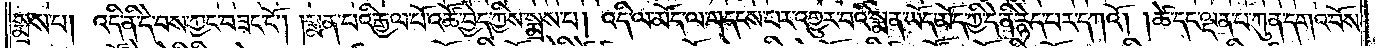སྨྲས་པ། འདི་ནི་དེ་བས་ཀྱང་བཟང་ངོ༌། །སྨན་པའི་རྒྱལ་པོ་འཚོ་བྱེད་ཀྱིས་སྨྲས་པ། འདི་ལ་མོད་ལ་གདངས་པར་འགྱུར་བའི་སྨན་ཡོད་མོད་ཀྱི་དེ་ནི་རྙེད་པར་དཀའོ། །ཚེ་དང་ལྡན་པ་ཀུན་དགའ་བོས་
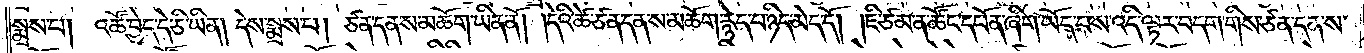སྨྲས་པ། འཚོ་བྱེད་དེ་ཅི་ཡིན། དེས་སྨྲས་པ། ཙན་དན་ས་མཆོག་ཡིན་ནོ། །དེའི་ཚེ་ཙན་དན་ས་མཆོག་རྙེད་པ་ཉིད་མེད་དོ། །ཇི་ཙམ་ན་ཚོང་དཔོན་ཞིག་ཡོད་པས་འདི་ལྟར་བདག་གིས་ཙན་དན་ས་
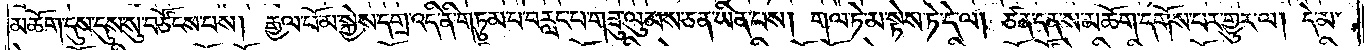མཆོག་དུས་དུས་སུ་བཙོངས་པས། རྒྱལ་པོ་མ་སྐྱེས་དགྲ་འདི་ནི་གཏུམ་པ་བརླང་པ་གཟུ་ལུམས་ཅན་ཡིན་པས། གལ་ཏེ་མ་སྟེས་ཏེ་དེ་ལ། ཙན་དན་ས་མཆོག་དགོས་པར་གྱུར་ལ། དེ་མ་
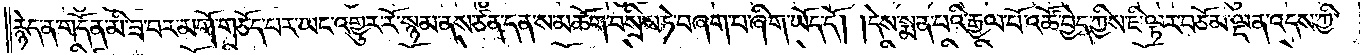རྙེད་ན་གདོན་མི་ཟ་བར་མགོ་གཅོད་པར་ཡང་འགྱུར་རོ་སྙམ་ནས་ཙན་དན་ས་མཆོག་བསྲིས་ཏེ་བཞག་པ་ཞིག་ཡོད་དོ། །དེས་སྨན་པའི་རྒྱལ་པོ་འཚོ་བྱེད་ཀྱིས་ཇི་ལྟར་བཅོམ་ལྡན་འདས་ཀྱི་
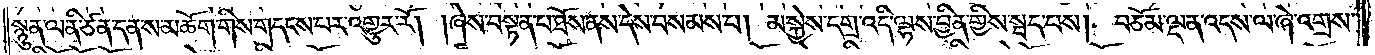སྙུན་ལ་ནི་ཙན་དན་ས་མཆོག་གིས་གདངས་པར་འགྱུར་རོ། །ཞེས་བསྟན་པ་ཐོས་ནས་དེས་བསམས་པ། མ་སྐྱེས་དགྲ་འདི་ལྷས་བྱིན་གྱིས་སྦད་པས། བཅོམ་ལྡན་འདས་ལ་ཞེ་འགྲས་
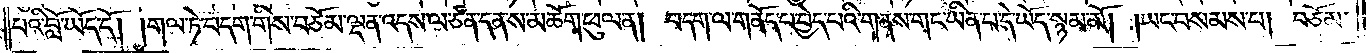པའི་བློ་ཡོད་དོ། །གལ་ཏེ་བདག་གིས་བཅོམ་ལྡན་འདས་ལ་ཙན་དན་ས་མཆོག་ཕུལ་ན། བདག་ལ་གནོད་པ་བྱེད་པའི་གནས་གང་ཡིན་པ་དེ་ཡོད་སྙམ་མོ། །ཡང་བསམས་པ། བཅོམ་
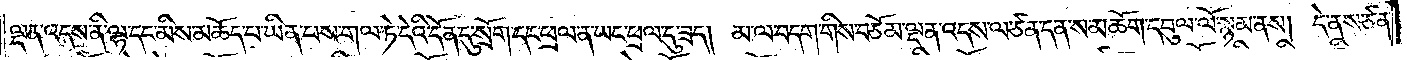ལྡན་འདས་ནི་ལྷ་དང་མིས་མཆོད་པ་ཡིན་པས་གལ་ཏེ་དེའི་དོན་དུ་སྲོག་དང་ཕྲལ་ན་ཡང་ཕྲལ་དུ་ཟད། མ་ལ་བདག་གིས་བཅོམ་ལྡན་འདས་ལ་ཙན་དན་ས་མཆོག་དབུལ་ལོ་སྙམ་ནས། དེ་ནས་ཙན་
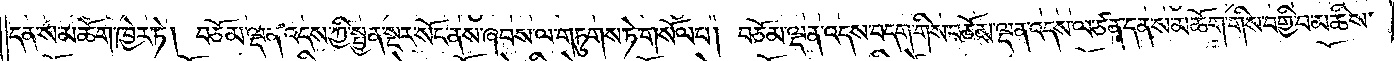དན་ས་མཆོག་ཁྱེར་ཏེ། བཅོམ་ལྡན་འདས་ཀྱི་སྤྱན་སྔར་སོང་ནས་ཞབས་ལ་གཏུགས་ཏེ་གསོལ་པ། བཅོམ་ལྡན་འདས་བདག་གིས་བཅོམ་ལྡན་འདས་ལ་ཙན་དན་ས་མཆོག་གིས་བགྱི་བ་མཆིས་
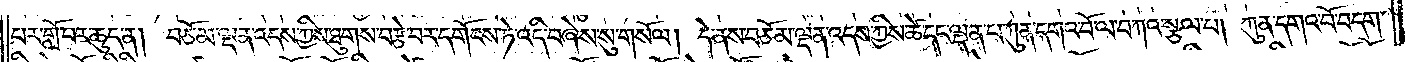པར་གློ་བར་ཆུད་ན། བཅོམ་ལྡན་འདས་ཀྱིས་ཐུགས་བརྩེ་བར་དགོངས་ཏེ་འདི་བཞེས་སུ་གསོལ། དེ་ནས་བཅོམ་ལྡན་འདས་ཀྱིས་ཚེ་དང་ལྡན་པ་ཀུན་དགའ་བོ་ལ་བཀའ་སྩལ་པ། ཀུན་དགའ་བོ་བདག་
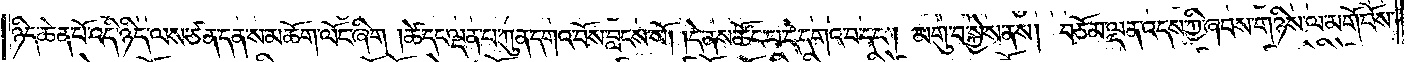ཉིད་ཆེན་པོ་འདི་ཉིད་ལས་ཙན་དན་ས་མཆོག་ལོང་ཞིག །ཚེ་དང་ལྡན་པ་ཀུན་དགའ་བོས་བླངས་སོ། །དེ་ནས་ཚོང་པ་དེ་དགའ་བ་དང༌། མགུ་བ་སྐྱེས་ནས། བཅོམ་ལྡན་འདས་ཀྱི་ཞབས་གཉིས་ལ་མགོ་བོས་
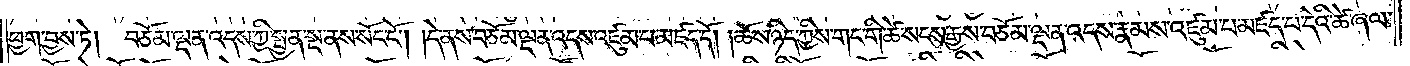ཕྱག་བྱས་ཏེ། བཅོམ་ལྡན་འདས་ཀྱི་སྤྱན་སྔ་ནས་སོང་ངོ༌། །དེ་ནས་བཅོམ་ལྡན་འདས་འཛུམ་པ་མཛད་དོ། །ཆོས་ཉིད་ཀྱིས་གནག་གི་ཚེ་སངས་རྒྱས་བཅོམ་ལྡན་འདས་རྣམས་འཛུམ་པ་མཛད་པ་དེའི་ཚེ་ཞལ་
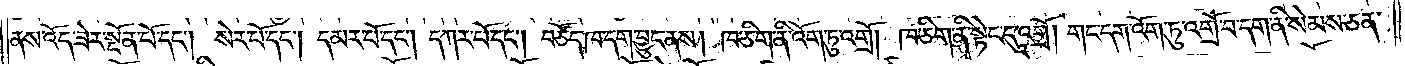ནས་འོད་ཟེར་སྔོན་པོ་དང༌། སེར་པོ་དང༌། དམར་པོ་དང༌། དཀར་པོ་དང༌། བཙོད་ཁ་དག་བྱུང་ནས། ཁ་ཅིག་ནི་འོག་ཏུ་འགྲོ། ཁ་ཅིག་ནི་སྟེང་དུ་འགྲོ། གང་དག་འོག་ཏུ་འགྲོ་བ་དག་ནི་སེམས་ཅན་
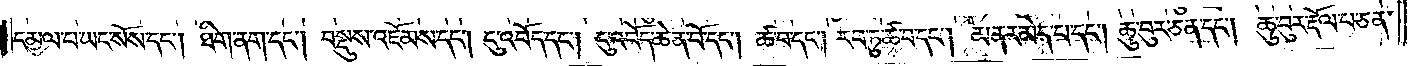དམྱལ་བ་ཡང་སོས་དང༌། ཐིག་ནག་དང༌། བསྡུས་འཇོམས་དང༌། ངུ་འབོད་དང༌། ངུ་འབོད་ཆེན་པོ་དང༌། ཚ་བ་དང༌། རབ་ཏུ་ཚ་བ་དང༌། མནར་མེད་པ་དང༌། ཆུ་བུར་ཅན་དང༌། ཆུ་བུར་རྡོལ་པ་ཅན་
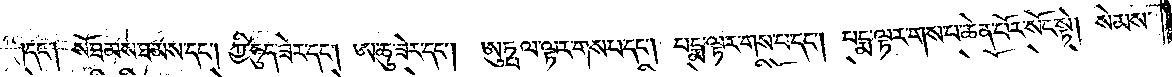དང༌། སོ་ཐམས་ཐམས་དང༌། ཀྱི་ཧུད་ཟེར་དང༌། ཨ་ཆུ་ཟེར་དང༌། ཨུཏྤལ་ལྟར་གས་པ་དང༌། པདྨ་ལྟར་གས་པ་དང༌། པདྨ་ལྟར་གས་པ་ཆེན་པོར་སོང་སྟེ། སེམས་
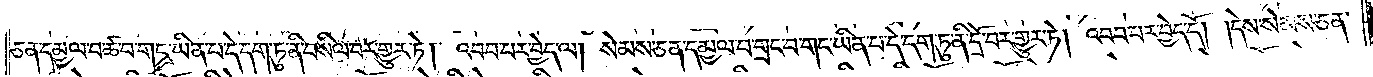ཅན་དམྱལ་བ་ཚ་བ་གང་ཡིན་པ་དེ་དག་ཏུ་ནི་བསིལ་བར་གྱུར་ཏེ། འབབ་པར་བྱེད་ལ། སེམས་ཅན་དམྱལ་བ་གྲང་བ་གང་ཡིན་པ་དེ་དག་ཏུ་ནི་དྲོ་བར་གྱུར་ཏེ། འབབ་པར་བྱེད་དོ། །དེས་སེམས་ཅན་
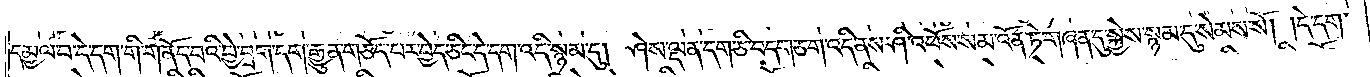དམྱལ་བ་དེ་དག་གི་གནོད་བའི་བྱེ་བྲག་དག་རྒྱུན་གཅོད་པར་བྱེད་ཅིང་དེ་དག་འདི་སྙམ་དུ། ཤེས་ལྡན་དག་ཅི་བདག་ཅག་འདི་ནས་ཤི་འཕོས་སམ་འོན་ཏེ་གཞན་དུ་སྐྱེས་སྙམ་དུ་སེམས་སོ། །དེ་དག་
